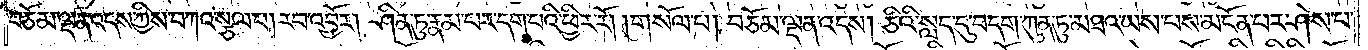བཅོམ་ལྡན་འདས་ཀྱིས་བཀའ་སྩལ་པ། རབ་འབྱོར། ཤིན་ཏུ་རྣམ་པར་དག་པའི་ཕྱིར་རོ། །གསོལ་པ། བཅོམ་ལྡན་འདས། ཅིའི་སླད་དུ་བདག་ཀུན་ཏུ་མཐའ་ཡས་པས་མངོན་པར་ཤེས་པ་
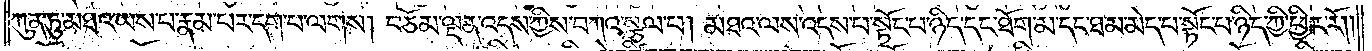ཀུན་ཏུ་མཐའ་ཡས་པ་རྣམ་པར་དག་པ་ལགས། བཅོམ་ལྡན་འདས་ཀྱིས་བཀའ་སྩལ་པ། མཐའ་ལས་འདས་པ་སྟོང་པ་ཉིད་དང་ཐོག་མ་དང་ཐ་མ་མེད་པ་སྟོང་པ་ཉིད་ཀྱི་ཕྱིར་རོ། །
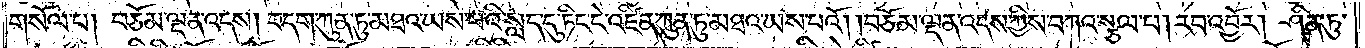གསོལ་པ། བཅོམ་ལྡན་འདས། བདག་ཀུན་ཏུ་མཐའ་ཡས་པའི་སླད་དུ་ཏིང་ངེ་འཛིན་ཀུན་ཏུ་མཐའ་ཡས་པའོ། །བཅོམ་ལྡན་འདས་ཀྱིས་བཀའ་སྩལ་པ། རབ་འབྱོར། ཤིན་ཏུ་
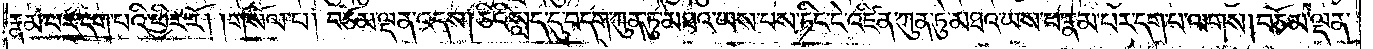རྣམ་པར་དག་པའི་ཕྱིར་རོ། །གསོལ་པ། བཅོམ་ལྡན་འདས། ཅིའི་སླད་དུ་བདག་ཀུན་ཏུ་མཐའ་ཡས་པས་ཏིང་ངེ་འཛིན་ཀུན་ཏུ་མཐའ་ཡས་པ་རྣམ་པར་དག་པ་ལགས། བཅོམ་ལྡན་
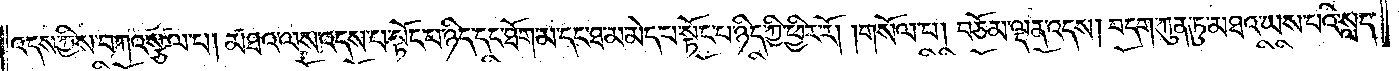འདས་ཀྱིས་བཀའ་སྩལ་པ། མཐའ་ལས་འདས་པ་སྟོང་པ་ཉིད་དང་ཐོག་མ་དང་ཐ་མ་མེད་པ་སྟོང་པ་ཉིད་ཀྱི་ཕྱིར་རོ། །གསོལ་པ། བཅོམ་ལྡན་འདས། བདག་ཀུན་ཏུ་མཐའ་ཡས་པའི་སླད་
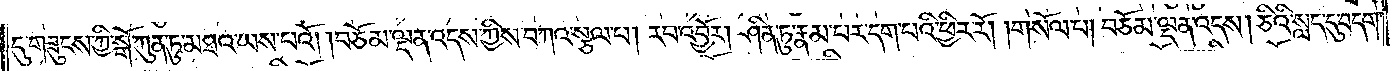དུ་གཟུངས་ཀྱི་སྒོ་ཀུན་ཏུ་མཐའ་ཡས་པའོ། །བཅོམ་ལྡན་འདས་ཀྱིས་བཀའ་སྩལ་པ། རབ་འབྱོར། ཤིན་ཏུ་རྣམ་པར་དག་པའི་ཕྱིར་རོ། །གསོལ་པ། བཅོམ་ལྡན་འདས། ཅིའི་སླད་དུ་བདག་
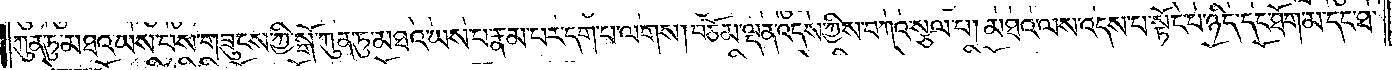ཀུན་ཏུ་མཐའ་ཡས་པས་གཟུངས་ཀྱི་སྒོ་ཀུན་ཏུ་མཐའ་ཡས་པ་རྣམ་པར་དག་པ་ལགས། བཅོམ་ལྡན་འདས་ཀྱིས་བཀའ་སྩལ་པ། མཐའ་ལས་འདས་པ་སྟོང་པ་ཉིད་དང་ཐོག་མ་དང་ཐ་
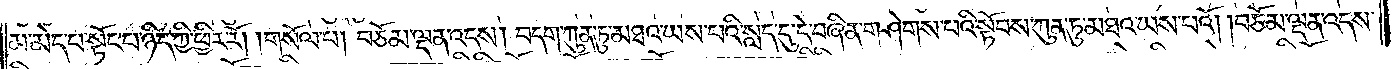མ་མེད་པ་སྟོང་པ་ཉིད་ཀྱི་ཕྱིར་རོ། །གསོལ་པ། བཅོམ་ལྡན་འདས། བདག་ཀུན་ཏུ་མཐའ་ཡས་པའི་སླད་དུ་དེ་བཞིན་གཤེགས་པའི་སྟོབས་ཀུན་ཏུ་མཐའ་ཡས་པའོ། །བཅོམ་ལྡན་འདས་
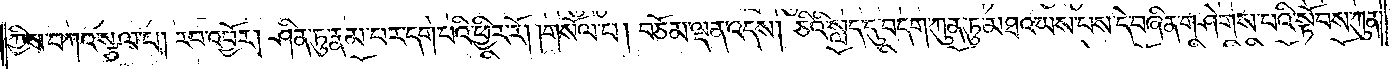ཀྱིས་བཀའ་སྩལ་པ། རབ་འབྱོར། ཤིན་ཏུ་རྣམ་པར་དག་པའི་ཕྱིར་རོ། །གསོལ་པ། བཅོམ་ལྡན་འདས། ཅིའི་སླད་དུ་བདག་ཀུན་ཏུ་མཐའ་ཡས་པས་དེ་བཞིན་གཤེགས་པའི་སྟོབས་ཀུན་
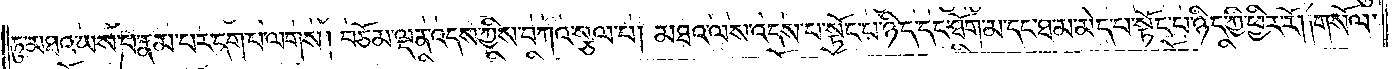ཏུ་མཐའ་ཡས་པ་རྣམ་པར་དག་པ་ལགས། བཅོམ་ལྡན་འདས་ཀྱིས་བཀའ་སྩལ་པ། མཐའ་ལས་འདས་པ་སྟོང་པ་ཉིད་དང་ཐོག་མ་དང་ཐ་མ་མེད་པ་སྟོང་པ་ཉིད་ཀྱི་ཕྱིར་རོ། །གསོལ་
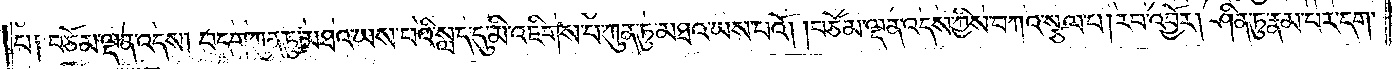པ༑ བཅོམ་ལྡན་འདས། བདག་ཀུན་ཏུ་མཐའ་ཡས་པའི་སླད་དུ་མི་འཇིགས་པ་ཀུན་ཏུ་མཐའ་ཡས་པའོ། །བཅོམ་ལྡན་འདས་ཀྱིས་བཀའ་སྩལ་པ། རབ་འབྱོར། ཤིན་ཏུ་རྣམ་པར་དག་
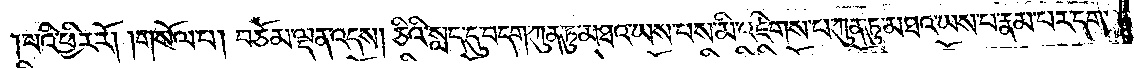པའི་ཕྱིར་རོ། །གསོལ་པ། བཅོམ་ལྡན་འདས། ཅིའི་སླད་དུ་བདག་ཀུན་ཏུ་མཐའ་ཡས་པས་མི་འཇིགས་པ་ཀུན་ཏུ་མཐའ་ཡས་པ་རྣམ་པར་དག་
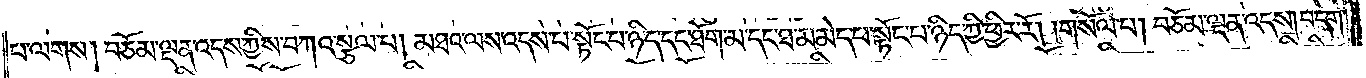པ་ལགས། བཅོམ་ལྡན་འདས་ཀྱིས་བཀའ་སྩལ་པ། མཐའ་ལས་འདས་པ་སྟོང་པ་ཉིད་དང་ཐོག་མ་དང་ཐ་མ་མེད་པ་སྟོང་པ་ཉིད་ཀྱི་ཕྱིར་རོ། །གསོལ་པ། བཅོམ་ལྡན་འདས། བདག་
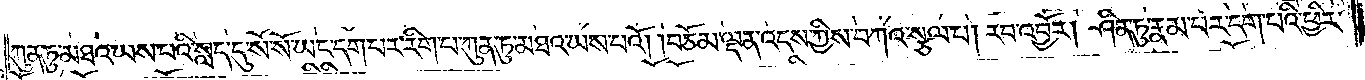ཀུན་ཏུ་མཐའ་ཡས་པའི་སླད་དུ་སོ་སོ་ཡང་དག་པར་རིག་པ་ཀུན་ཏུ་མཐའ་ཡས་པའོ། །བཅོམ་ལྡན་འདས་ཀྱིས་བཀའ་སྩལ་པ། རབ་འབྱོར། ཤིན་ཏུ་རྣམ་པར་དག་པའི་ཕྱིར་
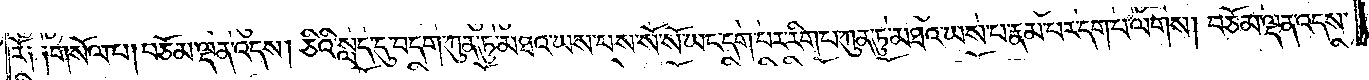རོ༑ ༑གསོལ་པ། བཅོམ་ལྡན་འདས། ཅིའི་སླད་དུ་བདག་ཀུན་ཏུ་མཐའ་ཡས་པས་སོ་སོ་ཡང་དག་པར་རིག་པ་ཀུན་ཏུ་མཐའ་ཡས་པ་རྣམ་པར་དག་པ་ལགས། བཅོམ་ལྡན་འདས་
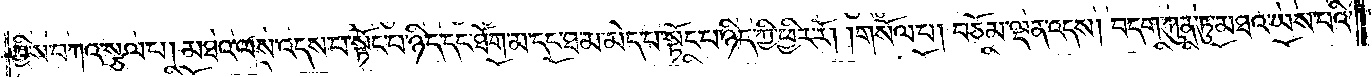ཀྱིས་བཀའ་སྩལ་པ། མཐའ་ལས་འདས་པ་སྟོང་པ་ཉིད་དང་ཐོག་མ་དང་ཐ་མ་མེད་པ་སྟོང་པ་ཉིད་ཀྱི་ཕྱིར་རོ། །གསོལ་པ། བཅོམ་ལྡན་འདས། བདག་ཀུན་ཏུ་མཐའ་ཡས་པའི་
